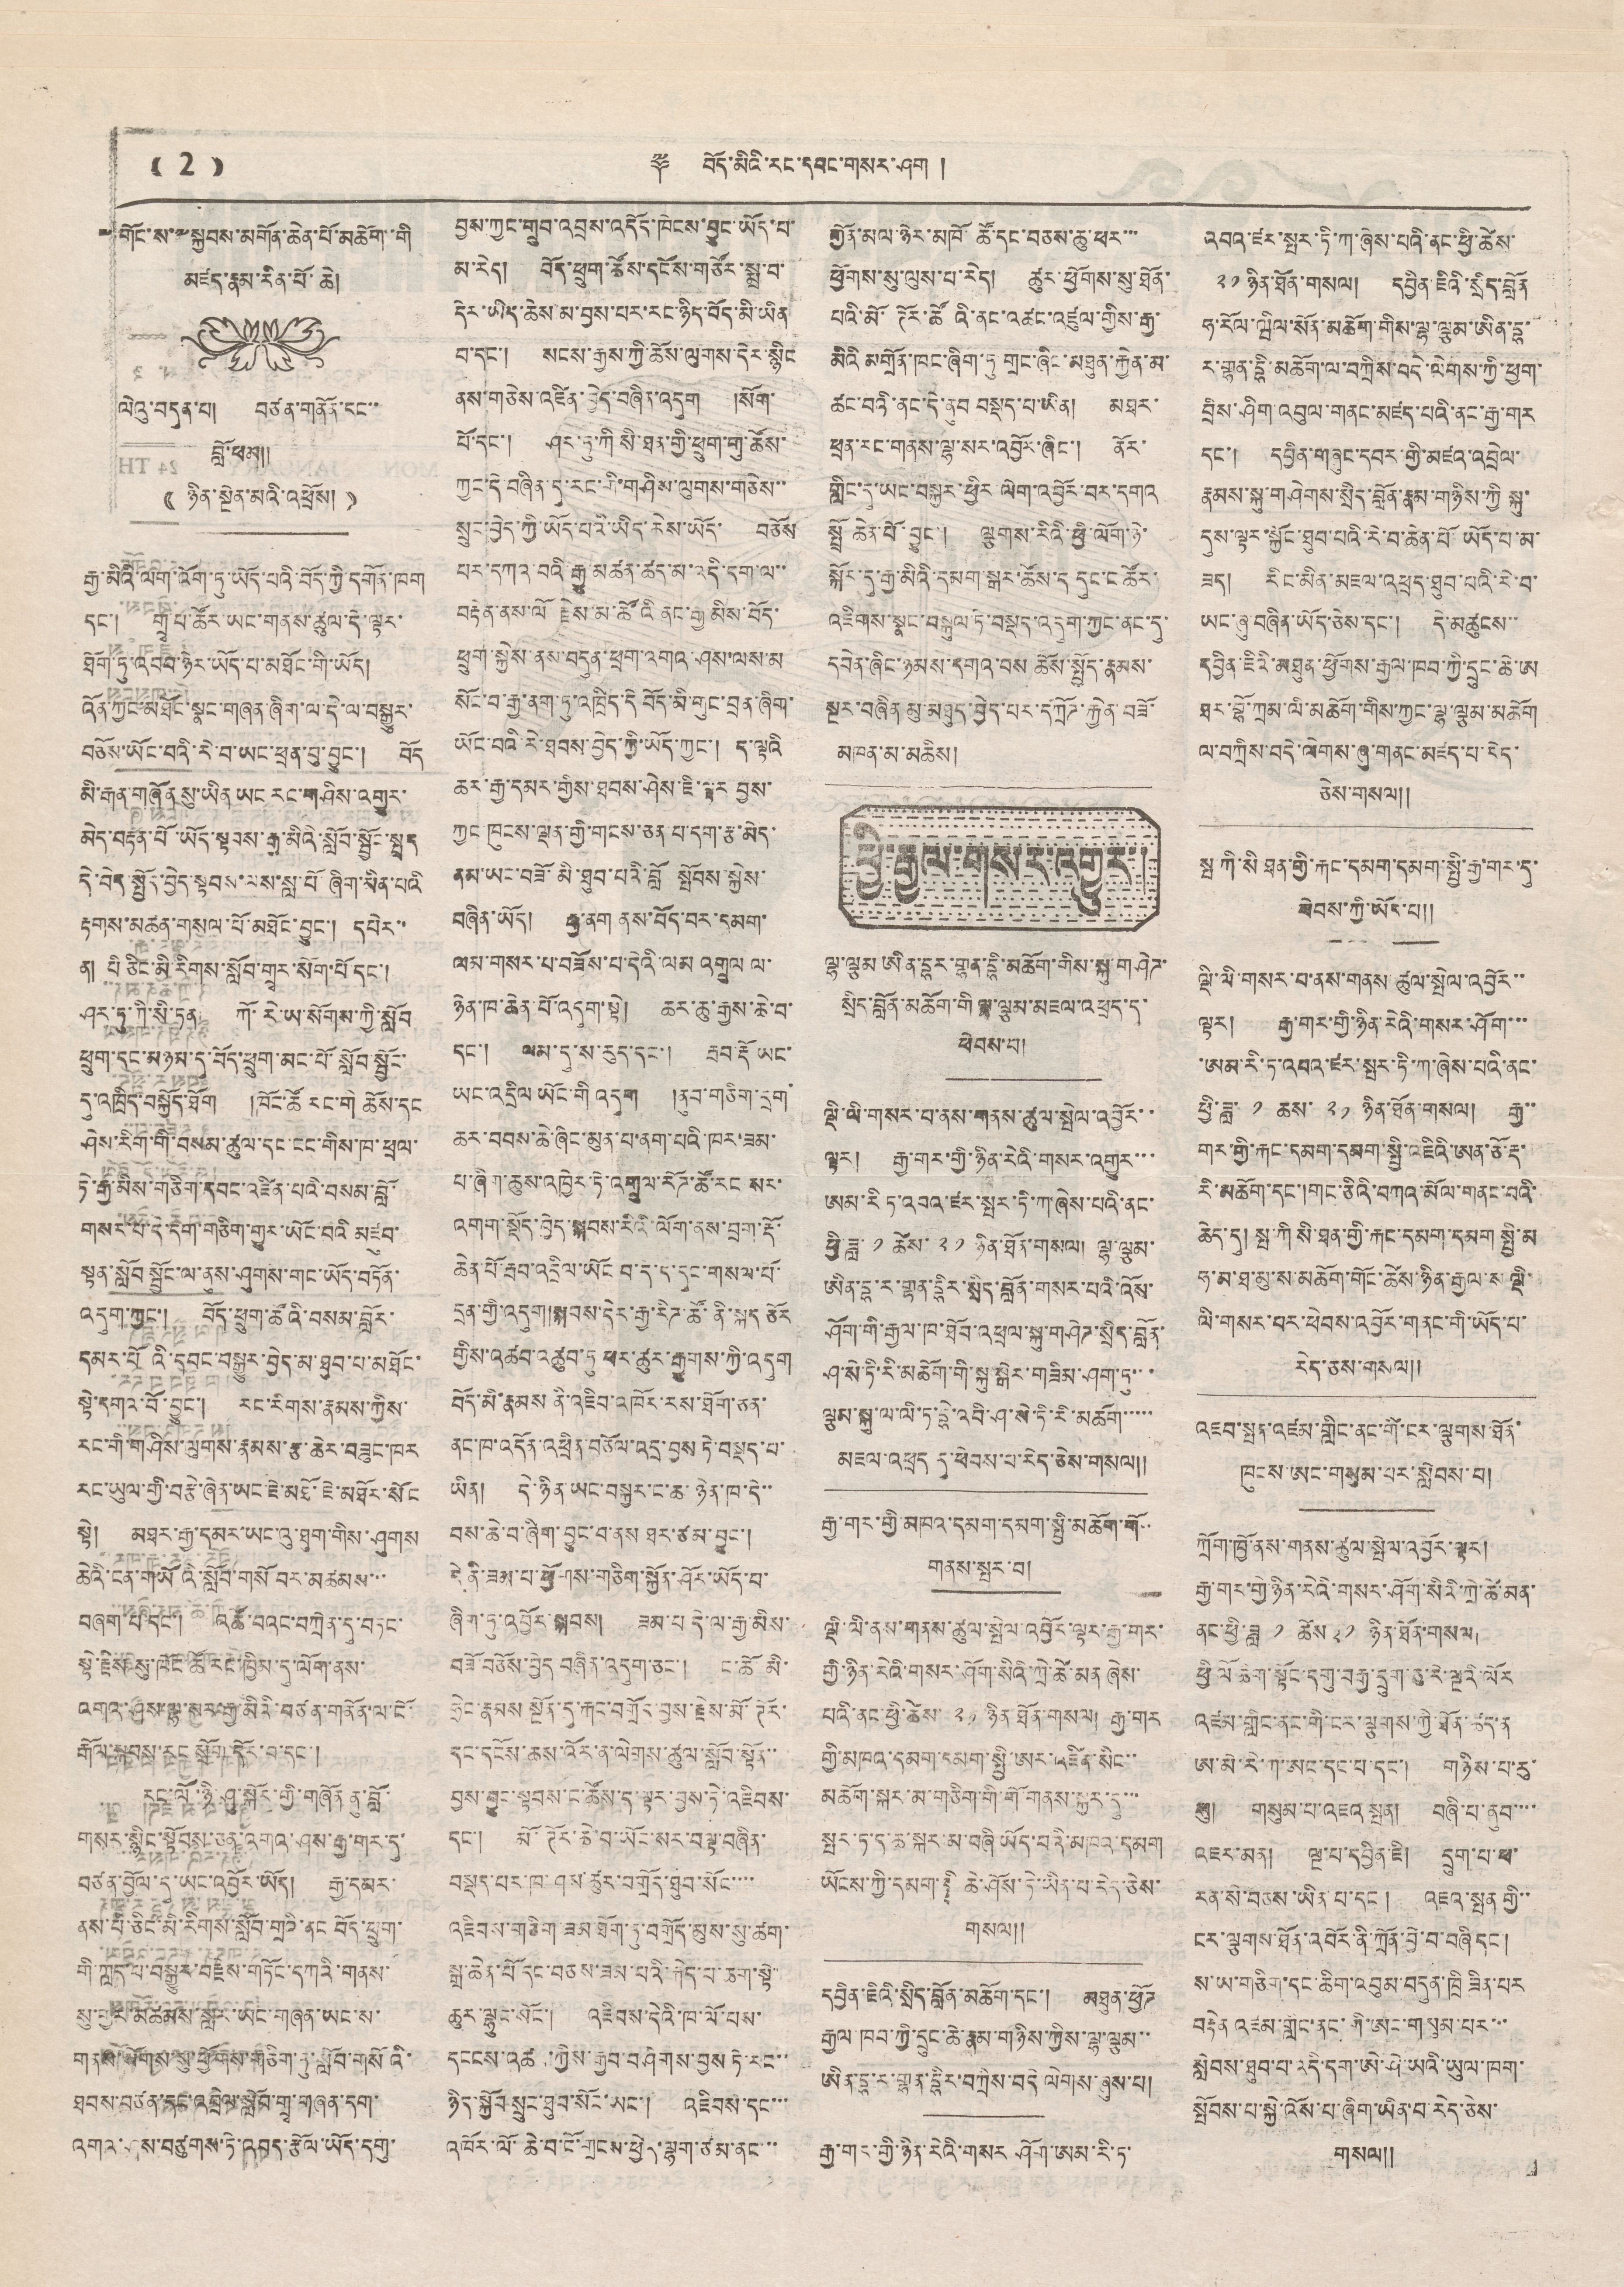((2)) ༈ བོད་མིའི་རང་དབང་གསར་ཤོག།།
༸གོང་ས་༸སྐྱབས་མགོན་ཆེན་པོ་མཆོག་་གི
མཛད་རྣམ་རིན་པོ་ཆེ།
ལེའུ་བདུན་པ། བཙན་གནོན་དང་་
བློ་ཕམ།།
(( ཉིན་སྔེན་མའི་འཕྲོས། ))
རྒྱ་མིའི་ལག་འོག་ཏུ་ཡོད་པའི་བོད་ཀྱི དགོན་ཁག
དང་། གྲྭ་པ་ཚོར་ཡར་གནས་ཚུལ་དེ་ལྟར་
ཐོག་རུ་འབབ་ཉེར་ཡོད་པ་མཐོང་གི་ཡོད།
འོན་ཀྱང་མཐོང་སྣང་གཞན་ཞིག་ལ་དེ་ལ་བསྒྱུར་
བཅོས་ཡོང་བའི་རེ་བ་ཡང་ཕྲན་བུ་བྱུང་། བོད
མི་རྒན་གཞོན སུ་ཡིན ཡང རང་གཤིས་འགྱུར་
མེད་བརྟན་པོ་ཡོད་སྟབས་རྒྱ་མིའི་སློབ་སྦྱོང་སྤྲད
དེ་བདེ་སྤྱོད་བྱེད་སྟབས་ལས་སླ་པོ་ཞིག་མིན་པའི་
རྟགས་མཚན་གསལ་པོ་མཐོང་བྱུང་། དཔེར་་
ན། པི ཅིང་མི་རིགས་སློབ་གྲྭར་སོག་པོ་དང་།
ཤར་ཏུ་ཀི་སི་ཏན། ཀོ་རེ་ཡ་སོགས་ཀྱི་སློབ
ཕྲུག་དང་མཉམ་དུ་བོད་ཕྲུག་མང་པོ་སློབ་སྦྱོང་
དུ་འཁྲིད་བསྐྱོད་ཐོག །ཁོང་ཚོ རང་གི ཆོས་དང
ཤེས་རིག་གི་བསམ་ཚུལ་དང་ངང་གིས་ཁ་ཕྲལ་
ཏེ་རྒྱ་མིས་གཅིག་དབང་འཛིན་པའི་བསམ་བློ་
གསར་པ་དེ་དག་གཅིག་གྱུར་ཡོང་བའི བཛུབ་
སྟན་སློབ་སྦྱོང་ལ་ནུས་ཤུགས་གང་ཡོད་བཏོན་
འདུག་ཀྱང་། བོད་ཕྲུག་ཚོའི་བསལ་བློར་
དམར་པོའི་དབང་བསྒྱུར་བྱེད་མ་ཐུབ་པ་མཐོང་
སྟེ་དགའ་བོ་བྱུང་། རང་རིགས་རྣམས་ཀྱིས་
རང་གི་གཤིས་ལུགས་རྣམས་རྩ་ཆེར་བཟུང་ཁར
རང་ཡུལ་གྱི་བརྩེ་ཞེན་ཡང་ཇེ་མཐོ་ཇེ་མཐོར་སོང་
སྟེ། མཐར་རྒྱ་དམར་ཡང་འུ་ཐུག་གིས་ཤུགས
ཆེའི་ངན་གཡོའི་སློབ་གསོ བར་མཚམས་་་
བཞག་པ་དང་། འཚོ་བའང་བཀྲེན་དུ་བཏང་
སྟེ་རྗེས་སུ་ཁོང་ཚོ་རང་ཁྱིམ་དུ་ལོག་ནས་
འགའ་ཤས་ལྷ་སར་རྒྱ་མིའི་བཙན་གནོན་ལ་ངོ་
རྒོལ་སྐབས་རང་སྲོག་དོར་བ་དང་།
རང་ལོ་ཉི་ཤུ་སྐོར་གྱི་གཞོན ནུ་བློ་
གསར་སྙིང་སྟོབས་ཅན་འགའ་ཤས་རྒྱ་གར་དུ་
བཙན་བྱོལ་དུ་ཡང་འབྱོར་ཡོད། རྒྱ་དམར་
ནས་པི་ཅིང་མི་རིགས་སློབ་གྲའི་ནང བོད་ཕྲུག་
གི་ཀླད་པ་བསྒྱུར་བརྗེས་གཏོང་དཀའི་གནས་
སུ་གྱར་མཚམས་སླར་ཡང་གཞན་ཡང་ས་
གནས་སོགས་སུ་ཕྱོགས་གཅིག་ཏུ་སློབ་གསོའི་
ཐབས་བཙན་དང་འབྲེལ་སློབ་གྲྭ་གཞན་དག་
འགའ་ཤས་བཙུགས་ཏེ་འབད་རྩོལ་ཡོད་དགུ་
བྱས་ཀྱང་གྲུབ་འབྲས་འདོད་ཁེངས་བྱུང་ཡོད་པ་
མ་རེད། བོད་ཕྲུག་ཚོས་དངོས་གཙོར་སྨྲ་བ་
དེར་ཡིད་ཆེས་མ་བྱས་པར་རང་ཉིད་བོད་མི་ཡིན
བ་དང་། སངས་རྒྱས་ཀྱི་ཆོས་ལུགས་དེར་སྙིང
ནས་གཅེས་འཛིན་བྱེད་བཞིན་འདུག །སོག་
པོ་དང་། ཤར་ཏུ་ཀི སི་ཐན་གྱི་ཕྲུག་གུ་ཚོས་
ཀྱང་དེ་བཞིན་དུ་རང་གི་གཤིས་ལུགས་གཅེས་་
སྲུང་བྱེད་ཀྱི་ཡོད་པའི་ཡིད་ཆེས་ཡོད་ བཅོས
པར་དཀའ་བའི་རྒྱུ་མཚན་ཚད་མ་འདི་དག་ལ་་
བརྟེན་ནས་ལོ རྗེས་མ་ཚོའི ནང་རྒྱ་མིས་བོད་
ཕྲུག་སྐྱེས་ནས་བདུན་ཕྲག་འགའ་ཤས་ལས་མ
སོང་བ་རྒྱ་ནག་ཏུ་འཁྲིད་དེ བོད་མི་གུང་བྲན་ཞིག་
ཡོང་བའི་རེ་ཐབས་བྱེད་ཀྱི་ཡོད་ཀྱང་། ད་ལྟའི
ཆར་རྒྱ་དམར་གྱིས་ཐབས་ཤེས་ཇི་ལྟར བྱས་
ཀྱང་ཁུངས་ལྡན་གྱི་གངས་ཅན་པ་དག་རྩ་མེད་
ནམ་ཡང་བཟོ་མི་ཐུབ་པའི་བློ སྤོབས་སྐྱེས་
བཞིན་ཡོད། རྒྱ་ནག ནས་བོད་བར་དམག་
ལམ་གསར་པ་བཟོས་པ་དེའི་ལམ འགྲུལ ལ་
ཉེན་ཁ་ཆེན་པོ་འདུག་སྟེ། ཆར་ཆུ་རྒྱས་ཆེ་བ་
དང་། ལམ་དུ་ས་རུད་དང་། རྦས་རྡོ ཡང་
ཡང་འདྲིལ ཡོང་གི འདུག །ནུབ་གཅིག་དྲག་
ཆར་བབས་ཆེ་ཞིང་མུན་པ་ནག་པའི་ཁར་ཟམ་
པ་ཞིག་ཆུས་འཁྱེར་ཏེ་འགྲུལ་རོཌ་ཚོ་རང སར་
འགག་སྡོད་བྱེད་སྐབས་རིའི་ལོག་ནས་བྲག་རྡོ་
ཆེན་པོ་རྦབ་འདྲིལ་ཡོང བ་དེ་ད་དུང་གསལ་པོ་
དྲན་གྱི་འདུག།སྐབས་དེར་རྒྱ་རིཌ་ཚོ་ནི་སྐད ཅོར
གྱིས་འཚབ་འཚུབ་ཏུ ཕར་ཚུར་རྒྱུགས་ཀྱི་འདུག
བོད་མི་རྣམས ནི་འཇིབ་འཁོར་རས་ཐོག་ཅན་
ནང་ཁ་འདོན་འཕྲིན་བཅོལ་འདྲ་བྱས ཏེ་བསྡད་པ་
ཡིན། དེ་ཉིན་ཡང་བསྐྱར་ང་ཆ་ཉེན་ཁ་དེ་་
བས་ཆེ་བ་ཞིག་བྱུང་བ་ནས ཐར་ཙམ་བྱུང་།
དེ ནི་ཟམ་པ་ཕྱོགས་གཅིག་སྐྱོན་ཤོར་ཡོད་པ་
ཞིག་ཏུ་འབྱོར་སྐབས། ཟམ་པ དེ་ལ་རྒྱ་མིས་
བཟོ་བཅོས་བྱེད བཞིན་འདུག་ཅང་། ང་ཚོ་མི་
ཧྲེང་རྣམས སྔོན་དུ་རྐང་བགྲོད་བྱས་རྗེས་མོ་ཊོར་
དང་དངོས་ཆས་འོར་ན་ལེགས་ཚུལ་སློབ་སྟོན་་
བྱས་བྱུང་སྟབས་ང་ཚོས་ད་ལྟར་བྱས་ཏེ་འཇིབས་
དང་། མོ་ཊོར་ཆེ་བ་ཡོང་སར་བལྟ་བཞིན་
བསྡད་པར་ཁ་ཤས་ཚུར་བགྲོད་ཐུབ་སོང་་་་
འཇིབས་གཅིག་ཟམ་ཐོག་ཏུ་བགྲོད་མུས་སུ་ཚག་
སྒྲ་ཆེན་པོ་དང་བཅས་ཟམ་པའི་རྐེད་པ་ཆག་སྟེ་
ཆུར་ལྷུང་སོང་། འཇིབས་དེའི་ཁ་ལོ་པས་
དངངས་འཚབ་ཀྱིས་རྒྱབ་བཤིགས་བྱས ཏེ་རང་་
ཉིད་སྐྱོབ་སྲུང་ཐུབ་སོང་ཡང་། འཇིབས་དང་་་
འཁོར་ལོ་ཆེ་བ་ངོ་གྲངས་ཕྱེད་ལྷག་ཙམ་ནང་་་
གྱོན་མལ་ཉེར་མཁོ་ཚོ་དང་བཅས་ཆུ་ཕར་་་
ཕྱོགས་སུ་ལུས་པ་རེད། ཚུར་ཕྱོགས་སུ་ཐོན་
པའི་མོ་ཊོར་ཚོའི་ནང་འཚང་འཛུལ་གྱིས་རྒྱ་
མིའི མགྲོན་ཁང་ཞིག་ཏུ་གྲང་ཞིང་མཐུན་རྐྱེན་མ་
ཚང་བའི་ནང་དེ་ནུབ བསྡད་པ་ཡིན། མཐར་
ཕྲན་རང་གནས་ལྷ་སར་འབྱོར་ཞིང་། ནོར་
གླིང་དུ་ཡང་བསྐྱར་ཕྱིར་ལེག་འབྱོར་བར་དགའ
སྤྲོ ཆེན་པོ་བྱུང་། ལྕགས་རིའི་ཕྱི་ལོག་ཉེ་
སྐོར་དུ་རྒྱ་མིའི་དམག་སྒར་ཚོས་ད་དུང་ང་ཚོར་
འཇིགས་སྣང་བསྐུལ་ཏེ་བསྡད་འདུག་ཀྱང་ནང་དུ་
དབེན་ཞིང་ཉམས་དགའ་བས ཆོས་སྤྱོད་རྣམས་
སྔར་བཞིན་མུ་མཐུད་བྱེད་པར་དཀྲོཌ་རྐྱེན་བཟོ་
མཁན་མ་མཆིས།
ཕྱི་རྒྱལ་གསར་འགྱུར་།
ལྷ་ལྕམ ཨིན་དྷར་གྷན་དྷི་མཆོག་གིས་སྐུ་གཤེཌ་
སྲིད་བློན་མཆོག་གི ལྷ་ལྕམ་མཇལ་འཕྲད་ད་
ཕེབས་པ།
ལྡི་ལི་གསར་པ་ནས་གནས་ཚུལ་སྤེལ་འབྱོལ་་
ལྟར། རྒྱ་གར་གྱི་ཉིན་རེའི་གསར་འགྱུར་་་
ཨམ་རི ཏ་འབའ་ཛར་སྤར་ཏི་ཀ་ཞེས་པའི་ནང་
ཕྱི་ཟླ་ ༡ ཚེས་ ༢༡ ཉིན་ཐོན་གསལ། ལྷ་ལྕམ་
ཨིན་དྷ་ར་གྷན་དྷིར་སྲིད་བློན་གསར་པའི་འོས་
ཤོག་གི་རྒྱལ་ཁ་ཐོབ་འཕྲལ་སྐུ་གཤེཌ་སྲིད་བློན་
ཤ་སེ་ཏི་རི་མཆོག་གི་སྐུ་སྒེར་གཟིམ་ཤག་ཏུ་་་
ལྕམ་སྐུ་ལ་ལི་ཏ་དྷེ་འབི་ཤ་སེ་ཏི་རི་མཆོག་་་་་
མཇལ་འཕྲད དུ་ཕེབས་པ་རེད་ཅེས་གསལ།།
རྒྱ་གར་གྱི་མཁའ་དམག་དམག་སྤྱི་མཆོག་གོ་་
གནས་སྤར་བ།
ལྡི་ལི་ནས་གནས་ཚུལ་སྤེལ་འབྱོར་ལྟར་རྒྱ་གར་
གྱི་ཉིན་རེའི་གསར་ཤོག་སིའི་ཀྲེ་ཚེ་མན ཞེས་
པའི་ནང་ཕྱི་ཚེས་ ༢༡ ཉིན་ཐོན་གསལ། རྒྱ་གར
གྱི་མཁའ་དམག་དམག་སྤྱི་ཨར་འཛིན་སིང་་
མཆོག་སྐར་མ་གཅིག་གི་གནས་སྐྱར་དུ་་་
སྤར་ཏ་ད་ཆ་སྐར་མ་བཞི ཡོད་པའི་མཁའ་དམག
ཡོངས་ཀྱི་དམག་སྤྱི་ཆེ་ཤོས་ཏེ་ཡིན་པ་རེད་ཅེས་
གསལ།།
དབྱིན་ཇིའི་སྲིད་བློན་མཆོག་དང་། མཐུན་ཕྱོཌ
རྒྱལ ཁབ་ཀྱི་དྲུང་ཆེ་རྣམ་གཉིས་ཀྱིས་ལྷ་ལྕམ་་
ཨིན་དྷ་ར་གྷན་དྷིར་བཀྲིས་བདེ ལེགས་ཞུས་པ།
རྒྱ་གར་གྱི་ཉིན་རེའི་གསར ཤོག་ཨམ་རི་ཏ་
འབའ་ཛར་སྤར་ཏི་ཀ་ཞེས་པའི་ནང་ཕྱི་ཚེས་
༢༡ ཉིན་ཐོན་གསལ། དབྱིན་ཇིའི་སྲིད་བློན
ཧ་རོལ་ཝིལ་སོན་མཆོག་གིས་ལྷ་ལྕམ་ཨིན་དྷ་
ར་གྷན་དྷི་མཆོག་ལ་བཀྲིས་བདེ་ལེགས་ཀྱི་ཕྱག་
བྲིས་ཤིག་འབུལ་གནང་མཛད་པའི་ནང་རྒྱ་གར
དང་། དབྱིན་གཞུང་དབང་གྱི་མཛའ་འབྲེལ་
རྣམས་སྐུ་གཤེགས་སྲིད་བློན་རྣམ་གཉིས་ཀྱི སྐུ་
དུས་ལྟར་སྐྱོང་ཐུབ་པའི་རེ་བ་ཆེན་པོ་ཡོད་པ་མ་
ཟད། རིང་མིན་མཇལ་འཕྲད་ཐུབ་པའི་རེ་བ་
ཡང་ཞུ་བཞིན་ཡོད་ཅེས་དང་། དེ་མཚུངས་་
དབྱིན་ཇིའི་མཐུན་ཕྱོགས་རྒྱལ་ཁབ་ཀྱི་དྲུང་ཆེ་ཨ
ཐར་བྷོ་ཀྲམ་ལི་མཆོག་གིས་ཀྱང་ལྷ་ལྕམ་མཆོག
ལ་བཀྲིས་བདེ་ལེགས་ཞུ་གནང་མཛད་པ་རེད་
ཅེས་གསལ།།
སྤ་ཀི་སི ཐན་གྱི་རྐང་དམག་དམག་སྤྱི་རྒྱ་གར་དུ་
ཕེབས་ཀྱི་ཡོད་པ།།
ལྡི་ལི་གསར་པ་ནས་གནས་ཚུལ་སྤེལ་འབྱོར་་
ལྟར། རྒྱ་གར་གྱི་ཉིན་རེའི་གསལ་ཤོག་་་
་ཨམ་རི་ཏ་འབའ་ཛར་སྤར་ཏི་ཀ་ཞེས་པའི་ནང་
ཕྱི་ཟླ་ ༡ ཆས་ ༢༡ ཉིན་ཐོན་གསལ། རྒྱ་་
གར་གྱི་རྐང་དམག་དམག་སྤྱི་འཇིའི་ཨན་ཅོ་རྡ་
རི་མཆོག་དང་།གང་ཅིའི་བཀའ་མོལ་གནང་བའི་
ཆེད་དུ། སྤ་ཀི སི་ཐན་གྱི་རྐང་དམག་དམག སྤྱི་མ
ཧ་མ་ཐ་མུ་ས་མཆོག་གོང་ཚེས་ཉིན་རྒྱལ་ས ལྡི་
ལི་གསར་བར་ཕེབས་འབྱོར་གནང་གི་ཡོད་པ་
རེད་ཅས་གསལ།།
འཇབ་སྤན་འཛམ་གླིང་ནང་གི་ངར་ལྕགས་ཐོན་
ཁུངས་ཨང་གསུམ་པར་སླེབས་པ།
ཀྲོག་ཁྱོ་ནས་གནས་ཚུལ་སྤེལ་འབྱོར་ལྟར།
རྒྱ་གར་གྱི་ཉིན་རེའི་གསར་ཤོག་སིའི་ཀྲེ་ཚེ་མན་
ནང་ཕྱི་ཟླ ༡ ཚེས ༢༡ ཉིན་ཐོན་གསལ།
ཕྱི ལོ ཆིག་སྟོང་དགུ་བརྒྱ་དྲུག་ཅུ་རེ་ལྔའི་ལོར
འཛམ་གླིང་ནང་གི་ངར་ལྕགས་ཀྱི་ཐོན་ཚད་ན
ཨ་མི་རི་ཀ་ཨང་དང་པ་དང་། གཉིས་པ་རུ་
སུ། གསུམ་པ་འཇའ་སྤན། བཞི་པ་ནུབ་་་་
འཇར་མན། ལྔ་པ་དབྱིན་ཇི། དྲུག་པ་ཕ་
རན་སི་བཅས་ཡིན་པ་དང་། འཇའ་སྤན གྱི་་
ངར་ལྕགས་ཐོན་འབོར་ནི་ཀྲོན་བྱེ་བ་བཞི དང་།
ས་ཡ་གཅིག་དང་ཆིག་འབུམ་བདུན་ཁྲི ཟིན་པར
བརྟེན འཛམ་གླིང་ནང་གི་ཨང་གསུམ་པར་་་
སླེབས་ཐུབ་པ་འདི་དག་ཨེ་ཤེ་ཡའི་ཡུལ་ཁག་
སྤོབས་པ་སྐྱེ་འོས་པ་ཞིག་ཡིན་པ་རེད་ཅེས་
གསལ།།
